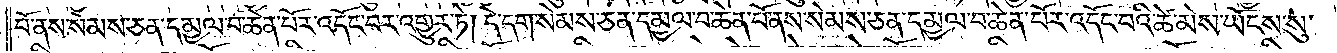པོ་ནས་སེམས་ཅན་དམྱལ་བ་ཆེན་པོར་འདོང་བར་འགྱུར་ཏེ། དེ་དག་སེམས་ཅན་དམྱལ་བ་ཆེན་པོ་ནས་སེམས་ཅན་དམྱལ་བ་ཆེན་པོར་འདོང་བའི་ཚེ་མེས་ཡོངས་སུ་
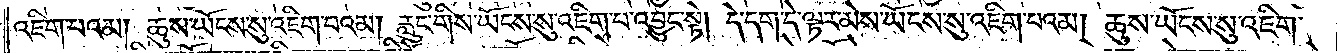འཇིག་པའམ། ཆུས་ཡོངས་སུ་འཇིག་པའམ། རླུང་གིས་ཡོངས་སུ་འཇིག་པ་འབྱུང་སྟེ། དེ་དག་དེ་ལྟར་མེས་ཡོངས་སུ་འཇིག་པའམ། ཆུས་ཡོངས་སུ་འཇིག་
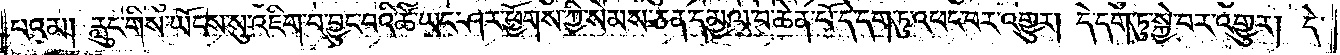པའམ། རླུང་གིས་ཡོངས་སུ་འཇིག་པ་བྱུང་བའི་ཚེ་ཡང་ཤར་ཕྱོགས་ཀྱི་སེམས་ཅན་དམྱལ་བ་ཆེན་པོ་དེ་དག་ཏུ་འཕང་བར་འགྱུར། དེ་དག་ཏུ་སྐྱེ་བར་འགྱུར། དེ་
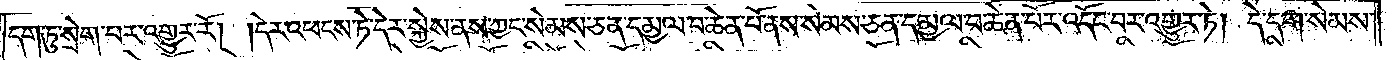དག་ཏུ་སྲེག་པར་འགྱུར་རོ། །དེར་འཕངས་ཏེ་དེར་སྐྱེས་ནས་ཀྱང་སེམས་ཅན་དམྱལ་བ་ཆེན་པོ་ནས་སེམས་ཅན་དམྱལ་བ་ཆེན་པོར་འདོང་བར་འགྱུར་ཏེ། དེ་དག་སེམས་
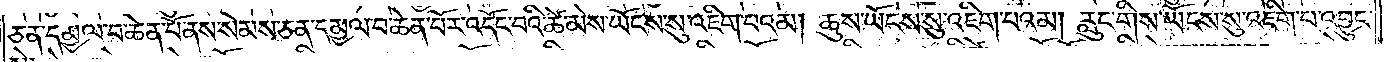ཅན་དམྱལ་བ་ཆེན་པོ་ནས་སེམས་ཅན་དམྱལ་བ་ཆེན་པོར་འདོང་བའི་ཚེ་མེས་ཡོངས་སུ་འཇིག་པའམ། ཆུས་ཡོངས་སུ་འཇིག་པའམ། རླུང་གིས་ཡོངས་སུ་འཇིག་པ་འབྱུང་
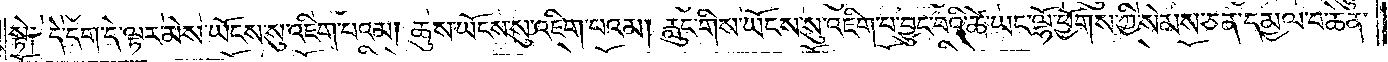སྟེ༑ དེ་དག་དེ་ལྟར་མེས་ཡོངས་སུ་འཇིག་པའམ། ཆུས་ཡོངས་སུ་འཇིག་པའམ། རླུང་གིས་ཡོངས་སུ་འཇིག་པ་བྱུང་བའི་ཚེ་ཡང་ལྷོ་ཕྱོགས་ཀྱི་སེམས་ཅན་དམྱལ་བ་ཆེན་
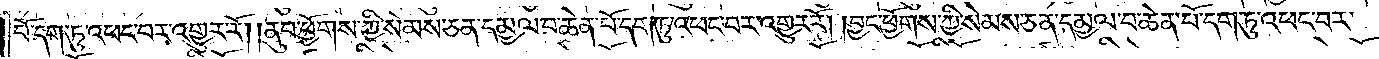པོ་དག་ཏུ་འཕང་བར་འགྱུར་རོ། །ནུབ་ཕྱོགས་ཀྱི་སེམས་ཅན་དམྱལ་བ་ཆེན་པོ་དག་ཏུ་འཕང་བར་འགྱུར་རོ། །བྱང་ཕྱོགས་ཀྱི་སེམས་ཅན་དམྱལ་བ་ཆེན་པོ་དག་ཏུ་འཕང་བར་
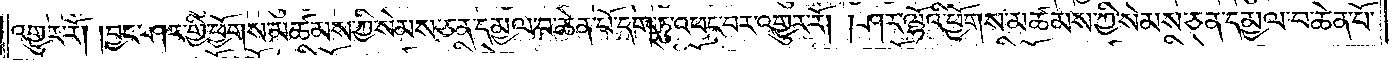འགྱུར་རོ། །བྱང་ཤར་གྱི་ཕྱོགས་མཚམས་ཀྱི་སེམས་ཅན་དམྱལ་བ་ཆེན་པོ་དག་ཏུ་འཕང་བར་འགྱུར་རོ། །ཤར་ལྷོའི་ཕྱོགས་མཚམས་ཀྱི་སེམས་ཅན་དམྱལ་བ་ཆེན་པོ་
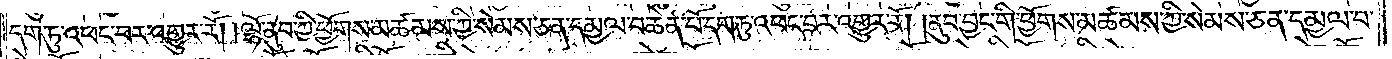དག་ཏུ་འཕང་བར་འགྱུར་རོ། །ལྷོ་ནུབ་ཀྱི་ཕྱོགས་མཚམས་ཀྱི་སེམས་ཅན་དམྱལ་བ་ཆེན་པོ་དག་ཏུ་འཕང་བར་འགྱུར་རོ། །ནུབ་བྱང་གི་ཕྱོགས་མཚམས་ཀྱི་སེམས་ཅན་དམྱལ་བ་
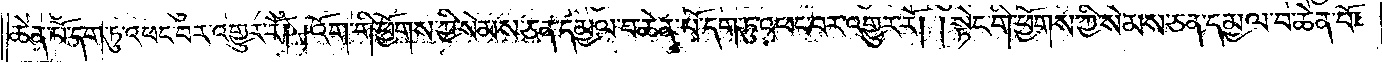ཆེན་པོ་དག་ཏུ་འཕང་བར་འགྱུར་རོ། །འོག་གི་ཕྱོགས་ཀྱི་སེམས་ཅན་དམྱལ་བ་ཆེན་པོ་དག་ཏུ་འཕང་བར་འགྱུར་རོ། །སྟེང་གི་ཕྱོགས་ཀྱི་སེམས་ཅན་དམྱལ་བ་ཆེན་པོ་
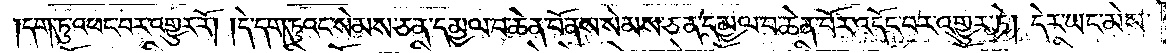དག་ཏུ་འཕང་བར་འགྱུར་རོ། །དེ་དག་ཏུའང་སེམས་ཅན་དམྱལ་བ་ཆེན་པོ་ནས་སེམས་ཅན་དམྱལ་བ་ཆེན་པོར་འདོང་བར་འགྱུར་ཏེ། དེར་ཡང་མེས་
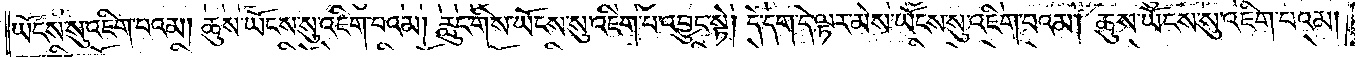ཡོངས་སུ་འཇིག་པའམ། ཆུས་ཡོངས་སུ་འཇིག་པའམ། རླུང་གིས་ཡོངས་སུ་འཇིག་པ་འབྱུང་སྟེ། དེ་དག་དེ་ལྟར་མེས་ཡོངས་སུ་འཇིག་པའམ། ཆུས་ཡོངས་སུ་འཇིག་པའམ།
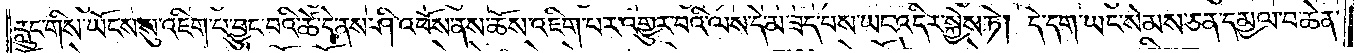རླུང་གིས་ཡོངས་སུ་འཇིག་པ་བྱུང་བའི་ཚེ་དེ་ནས་ཤི་འཕོས་ནས་ཆོས་འཇིག་པར་འགྱུར་བའི་ལས་དེ་མ་ཟད་པས་ཡང་འདིར་སྐྱེས་ཏེ། དེ་དག་ཡང་སེམས་ཅན་དམྱལ་བ་ཆེན་
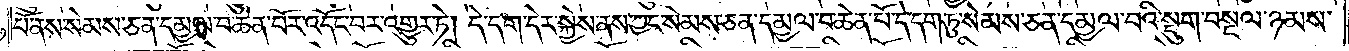པོ་ནས་སེམས་ཅན་དམྱལ་བ་ཆེན་པོར་འདོང་བར་འགྱུར་ཏེ། དེ་དག་དེར་སྐྱེས་ནས་ཀྱང་སེམས་ཅན་དམྱལ་བ་ཆེན་པོ་དེ་དག་ཏུ་སེམས་ཅན་དམྱལ་བའི་སྡུག་བསྔལ་ཉམས་
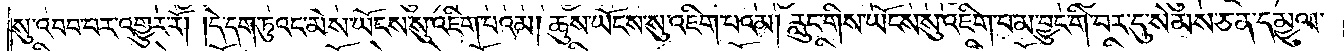སུ་འབབ་པར་འགྱུར་རོ། །དེ་དག་ཏུའང་མེས་ཡོངས་སུ་འཇིག་པའམ། ཆུས་ཡོངས་སུ་འཇིག་པའམ། རླུང་གིས་ཡོངས་སུ་འཇིག་པ་མ་བྱུང་གི་བར་དུ་སེམས་ཅན་དམྱལ་
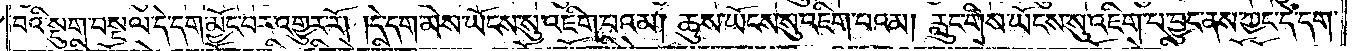བའི་སྡུག་བསྔལ་དེ་དག་མྱོང་བར་འགྱུར་རོ། །དེ་དག་མེས་ཡོངས་སུ་འཇིག་པའམ། ཆུས་ཡོངས་སུ་འཇིག་པའམ། རླུང་གིས་ཡོངས་སུ་འཇིག་པ་བྱུང་ནས་ཀྱང་དེ་དག་
